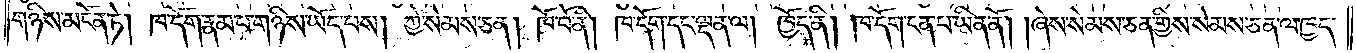གཉིས་མངོན་ཏེ། ཁ་དོག་རྣམ་པ་གཉིས་ཡོད་པས། ཀྱེ་སེམས་ཅན། ཁོ་བོ་ནི། ཁ་དོག་དང་ལྡན་ལ། ཁྱོད་ནི། ཁ་དོག་ངན་པ་ཡིན་ནོ། །ཞེས་སེམས་ཅན་གྱིས་སེམས་ཅན་ལ་ཁྱད་
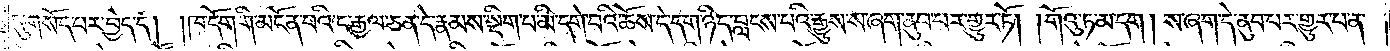དུ་གསོད་པར་བྱེད་དོ། །ཁ་དོག་གི་མངོན་པའི་ང་རྒྱལ་ཅན་དེ་རྣམས་སྡིག་པ་མི་དགེ་བའི་ཆོས་དེ་དག་ཉིད་བླངས་པའི་རྒྱུས་ས་ཞག་ནུབ་པར་གྱུར་ཏོ། །གོའུ་ཏ་མ་དག །ས་ཞག་དེ་ནུབ་པར་གྱུར་པ་ན་
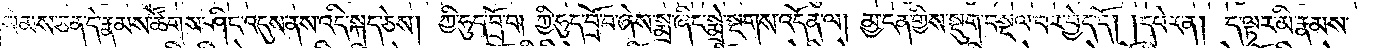སེམས་ཅན་དེ་རྣམས་ཚོགས་ཤིང་འདུས་ནས་འདི་སྐད་ཅེས། ཀྱི་ཧུད་བྲོ་བ། ཀྱི་ཧུད་བྲོ་བ་ཞེས་སྨྲ་ཞིང་སྨྲེ་སྔགས་འདོན་ལ། མྱ་ངན་གྱིས་སྡུག་བསྔལ་བར་བྱེད་དོ། །དཔེར་ན། ད་ལྟར་མི་རྣམས་
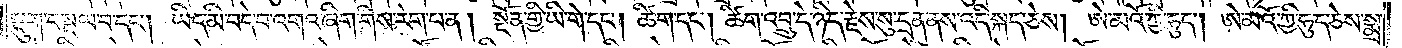སྡུག་བསྔལ་བ་དང༌། ཡིད་མི་བདེ་བ་འགའ་ཞིག་གིས་རེག་པ་ན། སྔོན་གྱི་ཡི་གེ་དང༌། ཚིག་དང༌། ཚིག་འབྲུ་དེ་ཉིད་རྗེས་སུ་དྲན་ནས་འདི་སྐད་ཅེས། ཨེ་མའོ་ཀྱི་ཧུད། ཨེ་མའོ་ཀྱི་ཧུད་ཅེས་སྨྲ་
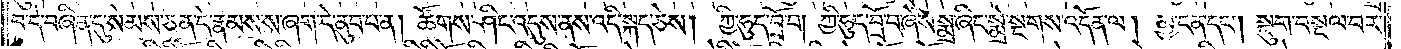བ་དེ་བཞིན་དུ་སེམས་ཅན་དེ་རྣམས་ས་ཞག་དེ་ནུབ་པ་ན། ཚོགས་ཤིང་འདུས་ནས་འདི་སྐད་ཅེས། ཀྱི་ཧུད་བྲོ་བ། ཀྱི་ཧུད་བྲོ་བ་ཞེས་སྨྲ་ཞིང་སྨྲེ་སྔགས་འདོན་ལ། མྱ་ངན་དང༌། སྡུག་བསྔལ་བར་
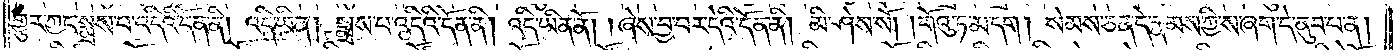གྱུར་ཀྱང་སྨྲས་པ་འདིའི་དོན་ནི། འདི་ཡིན། སྨྲས་པ་འདིའི་དོན་ནི། འདི་ཡིན་ནོ། །ཞེས་བྱ་བར་དེའི་དོན་ནི། མི་ཤེས་སོ། །གོའུ་ཏ་མ་དག །སེམས་ཅན་དེ་རྣམས་ཀྱི་ས་ཞག་དེ་ནུབ་པ་ན།
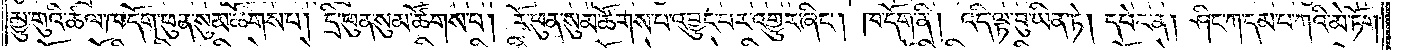མྱུ་གུའི་ཚལ་ཁ་དོག་ཕུན་སུམ་ཚོགས་པ། དྲི་ཕུན་སུམ་ཚོགས་པ། རོ་ཕུན་སུམ་ཚོགས་པ་འབྱུང་བར་འགྱུར་ཞིང༌། ཁ་དོག་ནི། འདི་ལྟ་བུ་ཡིན་ཏེ། དཔེར་ན། ཤིང་ཀ་དམ་པ་ཀའི་མེ་ཏོག་
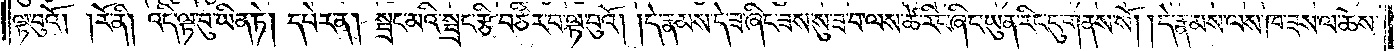ལྟ་བུའོ། །རོ་ནི། འདི་ལྟ་བུ་ཡིན་ཏེ། དཔེར་ན། སྦྲང་མའི་སྦྲང་རྩི་བཙིར་བ་ལྟ་བུའོ། །དེ་རྣམས་དེ་ཟ་ཞིང་ཟས་སུ་ཟ་བ་ལས་ཚེ་རིང་ཞིང་ཡུན་རིང་དུ་གནས་སོ། །དེ་རྣམས་ལས་ཁ་ཟས་ལ་ཆེས་
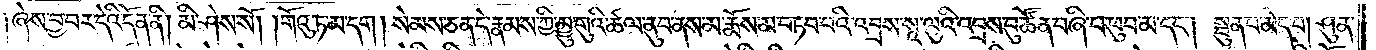ནོ། །ཞེས་བྱ་བར་དེའི་དོན་ནི། མི་ཤེས་སོ། །གོའུ་ཏ་མ་དག །སེམས་ཅན་དེ་རྣམས་ཀྱི་མྱུ་གུའི་ཚལ་ནུབ་ནས་མ་རྨོས་མ་བཏབ་པའི་འབྲས་སཱ་ལུའི་འབྲས་བུ་ཚོན་བཞི་པ་ཕུབ་མ་དང༌། སྦུན་པ་མེད་པ། ཤུན་
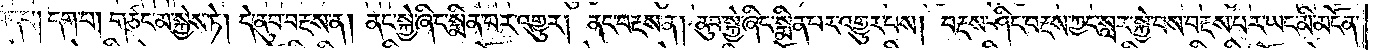པ་མེད་པ། དག་པ། གཙང་མ་སྐྱེས་ཏེ། དེ་ནུབ་བརྔས་ན། ནང་སྐྱེ་ཞིང་སྨིན་པར་འགྱུར། ནང་བརྔས་ན། ནུབ་སྐྱེ་ཞིང་སྨིན་པར་འགྱུར་པས། བརྔས་ཤིང་བརྔས་ཀྱང་སླར་སྐྱ་པས་བརྔས་པར་ཡང་མི་མངོན་
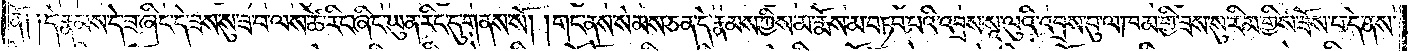ནོ། །དེ་རྣམས་དེ་ཟ་ཞིང་དེ་ཟས་སུ་ཟ་བ་ལས་ཚེ་རིང་ཞིང་ཡུན་རིང་དུ་གནས་སོ། །གང་ནས་སེམས་ཅན་དེ་རྣམས་ཀྱིས་མ་རྨོས་མ་བཏབ་པའི་འབྲས་སཱ་ལུའི་འབྲས་བུ་ལ་ཁམ་གྱི་ཟས་སུ་རིམ་གྱིས་ཟོས་པ་དེ་ནས་
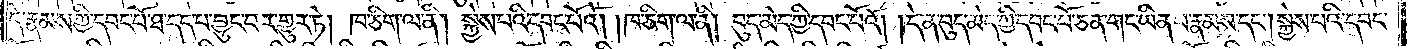དེ་རྣམས་ཀྱི་དབང་པོ་ཐ་དད་པ་བྱུང་བར་གྱུར་ཏེ། ཁ་ཅིག་ལ་ནི། སྐྱེས་པའི་དབང་པོའོ། །ཁ་ཅིག་ལ་ནི། བུད་མེད་ཀྱི་དབང་པོའོ། །དེ་ན་བུད་མེད་ཀྱི་དབང་པོ་ཅན་གང་ཡིན་པ་རྣམས་དང༌། སྐྱེས་པའི་དབང་
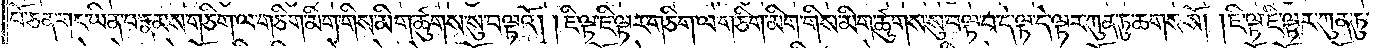པོ་ཅན་གང་ཡིན་པ་རྣམས་གཅིག་ལ་གཅིག་མིག་གིས་མིག་ཚུགས་སུ་བལྟའོ། །ཇི་ལྟ་ཇི་ལྟར་གཅིག་ལ་གཅིག་མིག་གིས་མིག་ཚུགས་སུ་བལྟ་བ་དེ་ལྟ་དེ་ལྟར་ཀུན་ཏུ་ཆགས་སོ། །ཇི་ལྟ་ཇི་ལྟར་ཀུན་ཏུ་
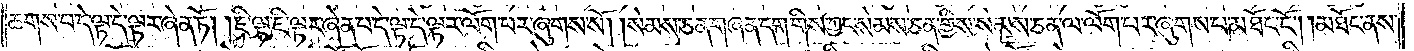ཆགས་པ་དེ་ལྟ་དེ་ལྟར་ཞེན་ཏོ། །ཇི་ལྟ་ཇི་ལྟར་ཞེན་པ་དེ་ལྟ་དེ་ལྟར་ལོག་པར་ཞུགས་སོ། །སེམས་ཅན་གཞན་དག་གིས་ཀྱང་སེམས་ཅན་གྱིས་སེམས་ཅན་ལ་ལོག་པར་ཞུགས་པ་མཐོང་ངོ༌། །མཐོང་ནས་
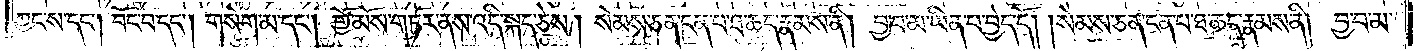ཀྱང་ས་དང༌། བོང་བ་དང༌། གསེག་མ་དང༌། གྱོ་མོས་གཏོར་ནས་འདི་སྐད་ཅེས། སེམས་ཅན་ངན་པ་ཐ་ཆད་རྣམས་ནི། བྱ་བ་མ་ཡིན་པ་བྱེད་དོ། །སེམས་ཅན་ངན་པ་ཐ་ཆད་རྣམས་ནི། བྱ་བ་མ་
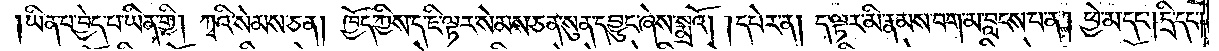།ཡིན་པ་བྱེད་པ་ཡིན་གྱི། ཀྭའི་སེམས་ཅན། ཁྱོད་ཀྱིས་ད་ཇི་ལྟར་སེམས་ཅན་སུན་དབྱུང་ཞེས་སྨྲའོ། །དཔེར་ན། ད་ལྟར་མི་རྣམས་བག་མ་བླངས་པ་ན། ཕྱེ་མ་དང༌། དྲི་དང༌།
